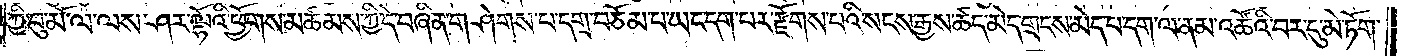ཀྱི་བུ་མོ་ལ་ལས་ཤར་ལྷོའི་ཕྱོགས་མཚམས་ཀྱི་དེ་བཞིན་གཤེགས་པ་དགྲ་བཅོམ་པ་ཡང་དག་པར་རྫོགས་པའི་སངས་རྒྱས་ཚད་མེད་གྲངས་མེད་པ་དག་ལ་ནམ་འཚོའི་བར་དུ་མེ་ཏོག་
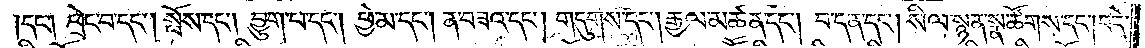དང༌། ཕྲེང་པ་དང༌། སྤོས་དང༌། བྱུག་པ་དང༌། ཕྱེ་མ་དང༌། ན་བཟའ་དང༌། གདུགས་དང༌། རྒྱལ་མཚན་དང༌། བ་དན་དང༌། སིལ་སྙན་སྣ་ཚོགས་དང༌། བདེ་
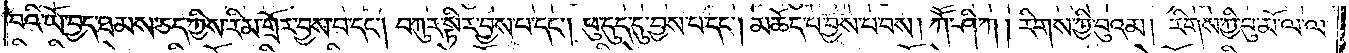བའི་ཡོ་བྱད་ཐམས་ཅད་ཀྱིས་རིམ་གྲོར་བྱས་པ་དང༌། བཀུར་སྟིར་བྱས་པ་དང༌། ཕུ་དུད་དུ་བྱས་པ་དང༌། མཆོད་པ་བྱས་པ་བས། ཀཽ་ཤི་ཀ། རིགས་ཀྱི་བུའམ། རིགས་ཀྱི་བུ་མོ་ལ་ལ་
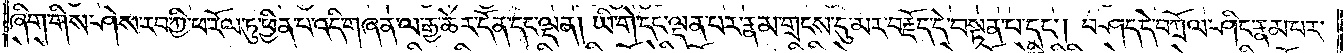ཞིག་གིས་ཤེས་རབ་ཀྱི་ཕ་རོལ་ཏུ་ཕྱིན་པ་འདི་གཞན་ལ་རྒྱ་ཆེར་དོན་དང་ལྡན། ཡི་གེ་དང་ལྡན་པར་རྣམ་གྲངས་དུ་མར་བརྗོད་དེ་བསྟན་པ་དང༌། བཤད་དེ་བཀྲོལ་ཤིང་རྣམ་པར་
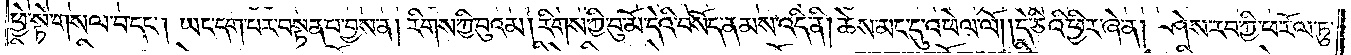ཕྱེ་སྟེ་གསལ་བ་དང༌། ཡང་དག་པར་བསྟན་པ་བྱས་ན། རིགས་ཀྱི་བུའམ། རིགས་ཀྱི་བུ་མོ་དེའི་བསོད་ནམས་འདི་ནི། ཆེས་མང་དུ་འཕེལ་ལོ། །དེ་ཅིའི་ཕྱིར་ཞེ་ན། ཤེས་རབ་ཀྱི་ཕ་རོལ་ཏུ་
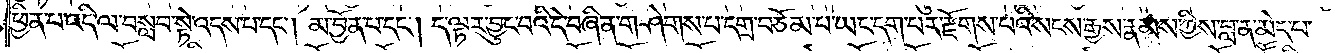ཕྱིན་པ་འདི་ལ་བསླབ་སྟེ་འདས་པ་དང༌། མ་བྱོན་པ་དང༌། ད་ལྟར་བྱུང་བའི་དེ་བཞིན་གཤེགས་པ་དགྲ་བཅོམ་པ་ཡང་དག་པར་རྫོགས་པའི་སངས་རྒྱས་རྣམས་ཀྱིས་བླ་ན་མེད་པ་
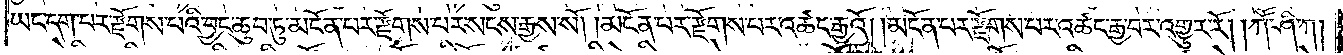ཡང་དག་པར་རྫོགས་པའི་བྱང་ཆུབ་ཏུ་མངོན་པར་རྫོགས་པར་སངས་རྒྱས་སོ། །མངོན་པར་རྫོགས་པར་འཚང་རྒྱའོ། །མངོན་པར་རྫོགས་པར་འཚང་རྒྱ་བར་འགྱུར་རོ། །ཀཽ་ཤི་ཀ།
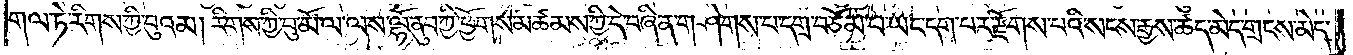གལ་ཏེ་རིགས་ཀྱི་བུའམ། རིགས་ཀྱི་བུ་མོ་ལ་ལས་ལྷོ་ནུབ་ཀྱི་ཕྱོགས་མཚམས་ཀྱི་དེ་བཞིན་གཤེགས་པ་དགྲ་བཅོམ་པ་ཡང་དག་པར་རྫོགས་པའི་སངས་རྒྱས་ཚད་མེད་གྲངས་མེད་
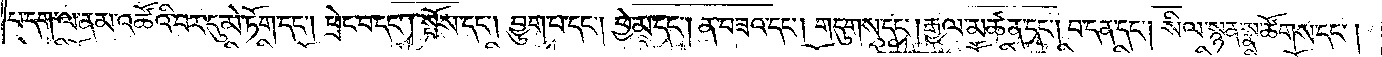པ་དག་ལ་ནམ་འཚོའི་བར་དུ་མེ་ཏོག་དང༌། ཕྲེང་པ་དང༌། སྤོས་དང༌། བྱུག་པ་དང༌། ཕྱེ་མ་དང༌། ན་བཟའ་དང༌། གདུགས་དང༌། རྒྱལ་མཚན་དང༌། བ་དན་དང༌། སིལ་སྙན་སྣ་ཚོགས་དང༌།
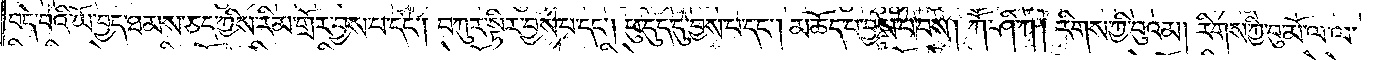བདེ་བའི་ཡོ་བྱད་ཐམས་ཅད་ཀྱིས་རིམ་གྲོར་བྱས་པ་དང༌། བཀུར་སྟིར་བྱས་པ་དང༌། ཕུ་དུད་དུ་བྱས་པ་དང༌། མཆོད་པ་བྱས་པ་བས། ཀཽ་ཤི་ཀ། རིགས་ཀྱི་བུའམ། རིགས་ཀྱི་བུ་མོ་ལ་ལ་
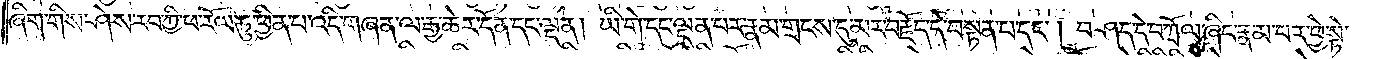ཞིག་གིས་ཤེས་རབ་ཀྱི་ཕ་རོལ་ཏུ་ཕྱིན་པ་འདི་གཞན་ལ་རྒྱ་ཆེར་དོན་དང་ལྡན། ཡི་གེ་དང་ལྡན་པར་རྣམ་གྲངས་དུ་མར་བརྗོད་དེ་བསྟན་པ་དང༌། བཤད་དེ་བཀྲོལ་ཞིང་རྣམ་པར་ཕྱེ་སྟེ་
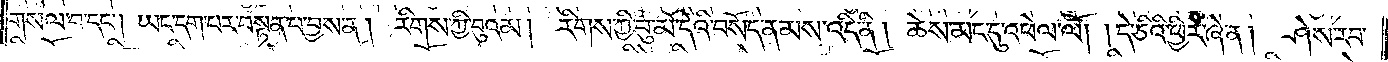གསལ་བ་དང༌། ཡང་དག་པར་བསྟན་པ་བྱས་ན། རིགས་ཀྱི་བུའམ། །རིགས་ཀྱི་བུ་མོ་དེའི་བསོད་ནམས་འདི་ནི། ཆེས་མང་དུ་འཕེལ་ལོ། །དེ་ཅིའི་ཕྱིར་ཞེ་ན། ཤེས་རབ་
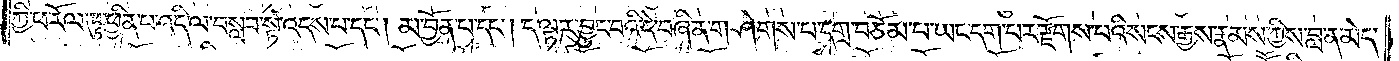ཀྱི་ཕ་རོལ་ཏུ་ཕྱིན་པ་འདི་ལ་བསླབ་སྟེ་འདས་པ་དང༌། མ་བྱོན་པ་དང༌། ད་ལྟར་བྱུང་བའི་དེ་བཞིན་གཤེགས་པ་དགྲ་བཅོམ་པ་ཡང་དག་པར་རྫོགས་པའི་སངས་རྒྱས་རྣམས་ཀྱིས་བླ་ན་མེད་
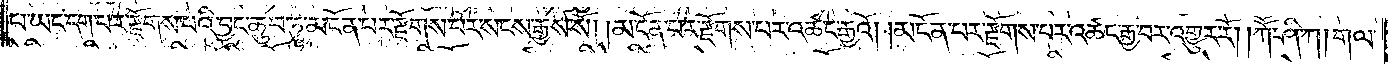པ་ཡང་དག་པར་རྫོགས་པའི་བྱང་ཆུབ་ཏུ་མངོན་པར་རྫོགས་པར་སངས་རྒྱས་སོ། །མངོན་པར་རྫོགས་པར་འཚང་རྒྱའོ། །མངོན་པར་རྫོགས་པར་འཚང་རྒྱ་བར་འགྱུར་རོ། །ཀཽ་ཤི་ཀ། གལ་
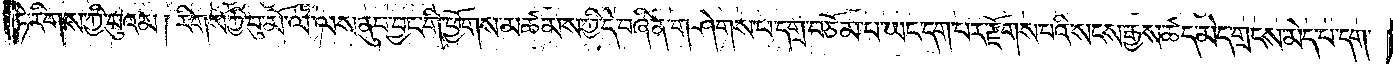ཏེ་རིགས་ཀྱི་བུའམ། རིགས་ཀྱི་བུ་མོ་ལ་ལས་ནུབ་བྱང་གི་ཕྱོགས་མཚམས་ཀྱི་དེ་བཞིན་གཤེགས་པ་དགྲ་བཅོམ་པ་ཡང་དག་པར་རྫོགས་པའི་སངས་རྒྱས་ཚད་མེད་གྲངས་མེད་པ་དག་
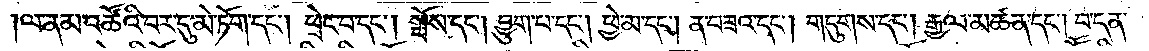ལ་ནམ་འཚོའི་བར་དུ་མེ་ཏོག་དང༌། ཕྲེང་བ་དང༌། སྤོས་དང༌། བྱུག་པ་དང༌། ཕྱེ་མ་དང༌། ན་བཟའ་དང༌། གདུགས་དང༌། རྒྱལ་མཚན་དང༌། བ་དན་
